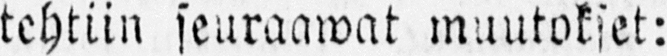tehtiin seuraawat muutokset:
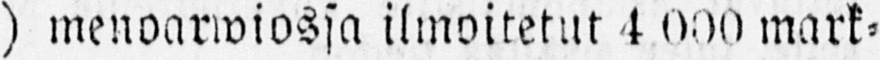a) menoarwiossa ilmoitetut 4000 mark-
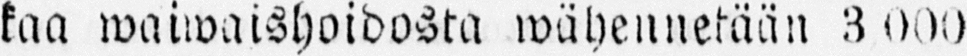kaa waiwaishoidosta wähennetään 3000
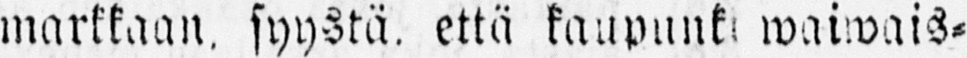markkaan, syystä, että kaupunk waiwais-
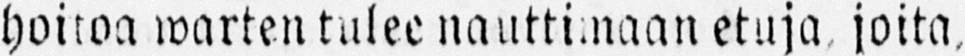hoitoa warten tulee nauttimaan etuja joita.
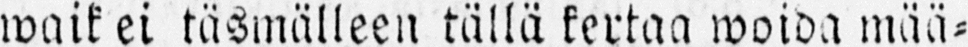waik ei täsmälleen tällä kertaa woida mää-
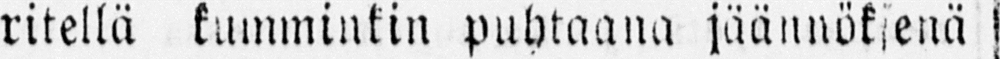ritellä kumminkin puhtaana jäännöksenä
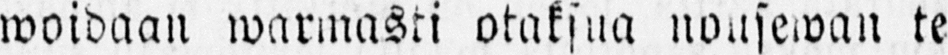woidaan warmasti otaksua nousewan te
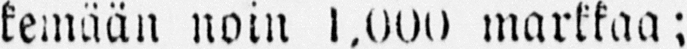kemään noin 1,000 markkaa;
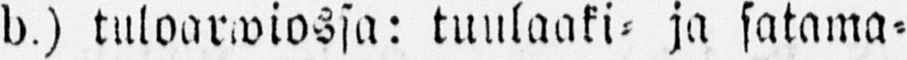b.) tuloarwiossa: tuulaaki- ja satama-
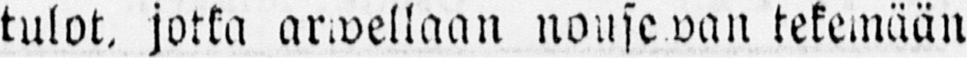tulot, jotka arwellaan nousewan tekemään
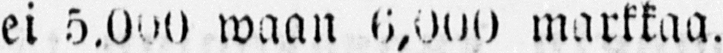ei 5,000 waan 6,000 markkaa.
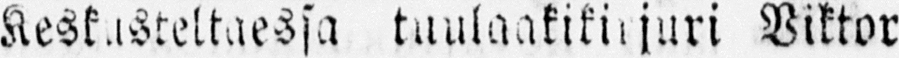Keskusteltaessa tuulaakikujuri Viktor
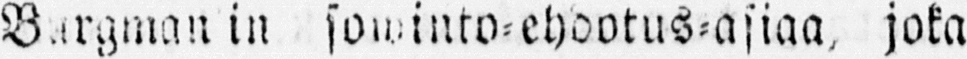Burgman in sowinto-ehdotus-asiaa, joka
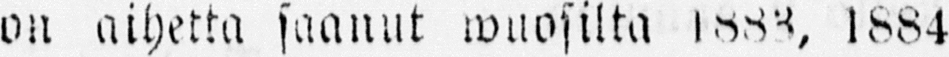on aihetta saanut wuosilta 1883, 1884
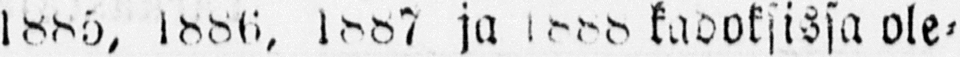1885, 1886, 1887 ja 1888 kadoksissa ole-
